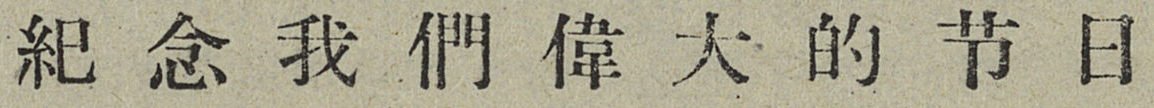紀 念 我 們 偉 大 的 节 日
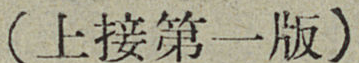上接第一版
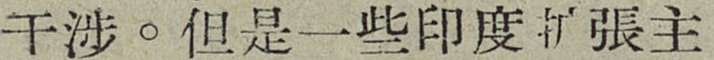干涉。但是一些印度扩張主
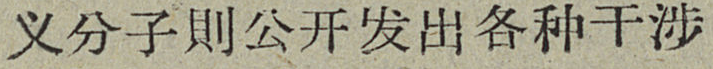义分子則公开发出各种干涉
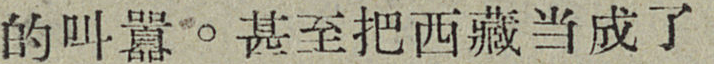的叫囂。甚至把西藏当成了
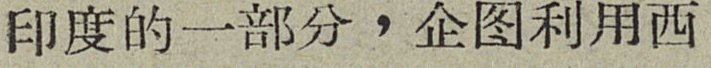印度的一部分，企图利用西
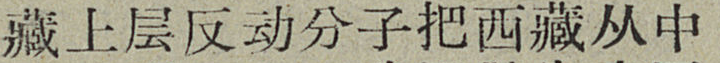藏上层反动分子把西藏从中
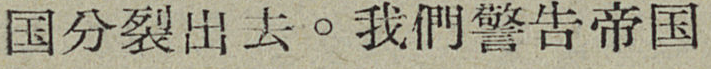国分裂出去。我們警告帝国
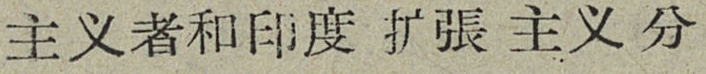主义者和印度扩張主义分
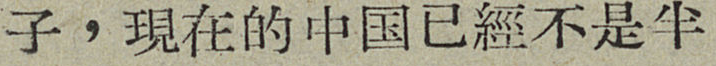子，現在的中国已經不是半
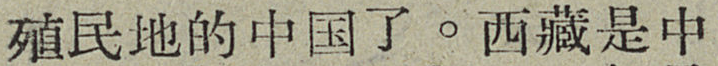殖民地的中国了。西藏是中
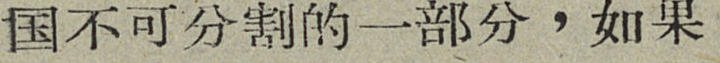国不可分割的一部分，如果
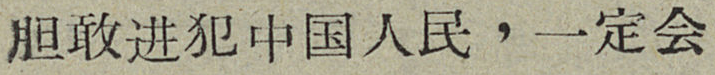胆敢进犯中国人民，一定会
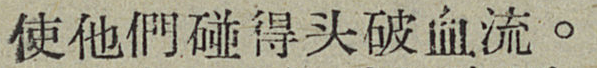使他們碰得头破血流。
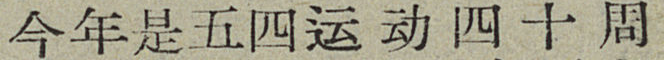今年是五四运动四十周
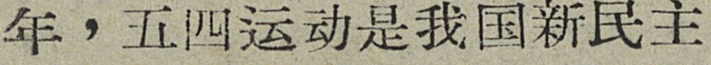年，五四运动是我国新民主
